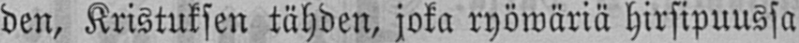den, Kristuksen tähden, joka ryöwäriä hirsipuussa
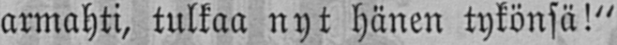armahti, tulkaa nyt hänen tykönsä!"
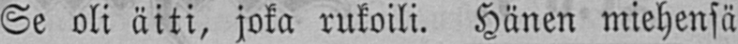Se oli äiti, joka rukoili. Hänen miehensä
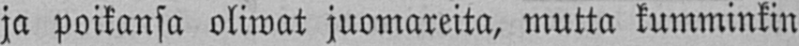ja poikansa oliwat juomareita, mutta kumminkin
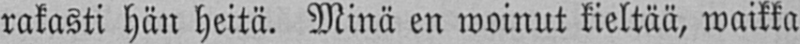rakasti hän heitä. Minä en woinut kieltää, waikka
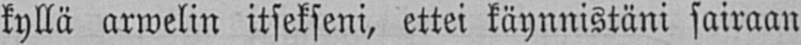kyllä arwelin itsekseni, ettei käynnistäni sairaan
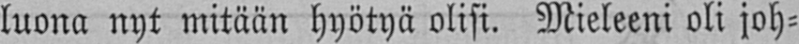luona nyt mitään hyötyä olisi. Mieleeni oli joh-
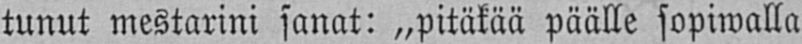tunut mestarini sanat: „pitäkää päälle sopiwalla
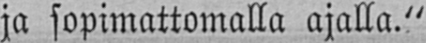ja sopimattomalla ajalla."
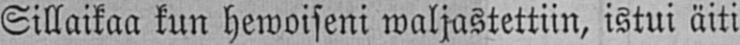Sillaikaa kun hewoiseni waljastettiin, istui äiti
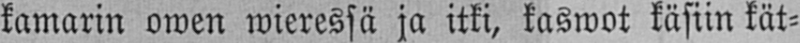kamarin owen wieressä ja itki, kaswot käsiin kät-
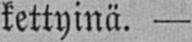kettyinä. —
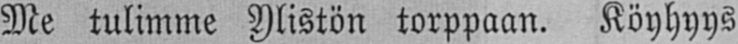Me tulimme Ylistön torppaan. Köyhyys
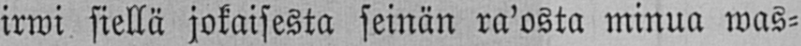irwi siellä jokaisesta seinän ra'osta minua was-
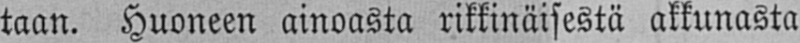taan. Huoneen ainoasta rikkinäisestä akkunasta
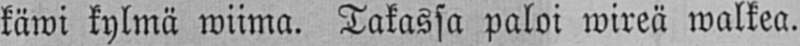käwi kylmä wiima. Takassa paloi wireä walkea.
